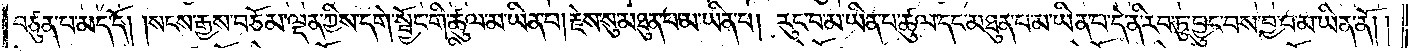བཙུན་པ་མད་དོ། །སངས་རྒྱས་བཅོམ་ལྡན་འདས་ཀྱིས་དགེ་སྦྱོང་གི་ཚུལ་མ་ཡིན་པ། རྗེས་སུ་མཐུན་པ་མ་ཡིན་པ། རུང་བ་མ་ཡིན་པ་ཚུལ་དང་མཐུན་པ་མ་ཡིན་པ་དེ་ནི་རབ་ཏུ་བྱུང་བས་བྱ་བ་མ་ཡིན་ནོ། །
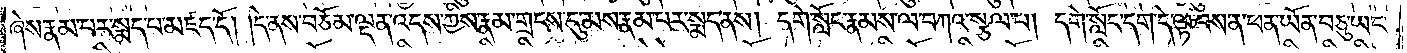ཞེས་རྣམ་པར་སྨད་པ་མཛད་དོ། །དེ་ནས་བཅོམ་ལྡན་འདས་ཀྱིས་རྣམ་གྲངས་དུ་མས་རྣམ་པར་སྨད་ནས། དགེ་སློང་རྣམས་ལ་བཀའ་སྩལ་པ། དགེ་སློང་དག་དེ་ལྟ་བས་ན་ཕན་ཡོན་བཅུ་ཡང་
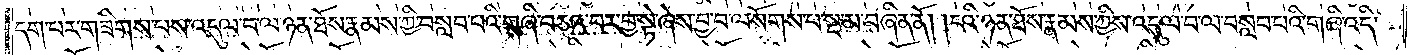དག་པར་གཟིགས་པས་འདུལ་བ་ལ་ཉན་ཐོས་རྣམས་ཀྱི་བསླབ་པའི་གཞི་བཅའ་བར་བྱ་སྟེ་ཞེས་བྱ་བ་ལ་སོགས་པ་སྔ་མ་བཞིན་ནོ། །ངའི་ཉན་ཐོས་རྣམས་ཀྱིས་འདུལ་བ་ལ་བསླབ་པའི་གཞི་འདི་
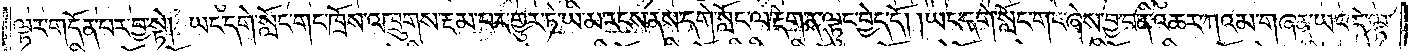ལྟར་གདོན་པར་བྱ་སྟེ། ཡང་དགེ་སློང་གང་ཁྲོས་འཁྲུགས་རྔམ་བར་གྱུར་ཏེ་ཡི་མ་རངས་ནས་དགེ་སློང་ལ་རྡེག་ན་ལྟུང་བྱེད་དོ། །ཡང་དགེ་སློང་གང་ཞེས་བྱ་བ་ནི་འཆར་ཀའམ་གཞན་ཡང་དེ་ལྟ་
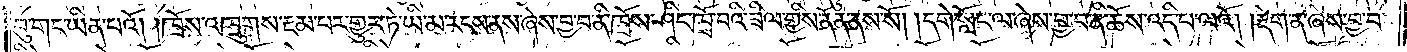བུ་གང་ཡིན་པའོ། །ཁྲོས་འཁྲུགས་རྔམ་པར་གྱུར་ཏེ་ཡི་མ་རངས་ནས་ཞེས་བྱ་བ་ནི་ཁྲོས་ཤིང་ཁྲོ་བའི་ཟིལ་གྱིས་ནོན་ནས་སོ། །དགེ་སློང་ལ་ཞེས་བྱ་བ་ནི་ཆོས་འདི་པ་ལའོ། །རྡེག་ན་ཞེས་བྱ་བ་
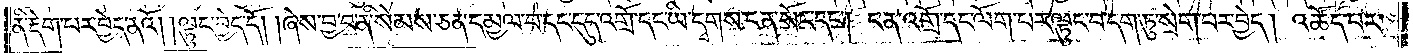ནི་རྡེག་པར་བྱེད་ནའོ། །ལྟུང་བྱེད་དོ། །ཞེས་བྱ་བ་ནི་སེམས་ཅན་དམྱལ་བ་དང་དུད་འགྲོ་དང་ཡི་དྭགས་ངན་སོང་དང༌། ངན་འགྲོ་དང་ལོག་པར་ལྟུང་བ་དག་ཏུ་སྲེག་པར་བྱེད། འཚོད་པར་
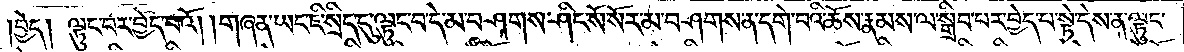བྱེད། ལྟུང་བར་བྱེད་པའོ། །གཞན་ཡང་ཇི་སྲིད་དུ་ལྟུང་བ་དེ་མ་བཤགས་ཤིང་སོ་སོར་མ་བཤགས་ན་དགེ་བའི་ཆོས་རྣམས་ལ་སྒྲིབ་པར་བྱེད་པ་སྟེ་དེས་ན་ལྟུང་
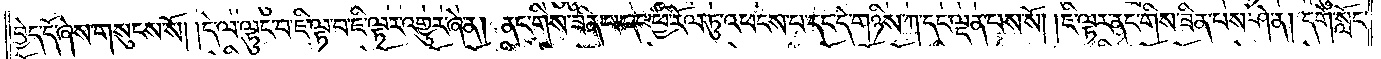བྱེད་དོ་ཞེས་གསུངས་སོ། །དེ་ལ་ལྟུང་བ་ཇི་ལྟ་བ་ཇི་ལྟར་འགྱུར་ཞེ་ན། ནང་གིས་ཟིན་པ་དང་ཕྱི་རོལ་ཏུ་འཕངས་པ་དང་དེ་གཉིས་ཀ་དང་ལྡན་པས་སོ། །ཇི་ལྟར་ནང་གིས་ཟིན་པས་ཤེ་ན། དགེ་སློང་
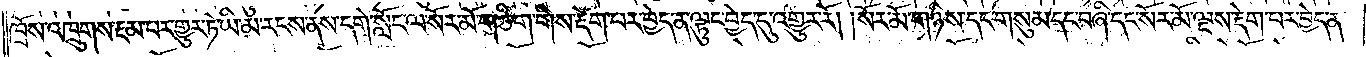ཁྲོས་འཁྲུགས་རྔམ་པར་གྱུར་ཏེ་ཡི་མ་རངས་ནས་དགེ་སློང་ལ་སོར་མོ་གཅིག་གིས་རྡེག་པར་བྱེད་ན་ལྟུང་བྱེད་དུ་འགྱུར་རོ། །སོར་མོ་གཉིས་དང་གསུམ་དང་བཞི་དང་སོར་མོ་ལྔས་རྡེག་པར་བྱེད་ན་
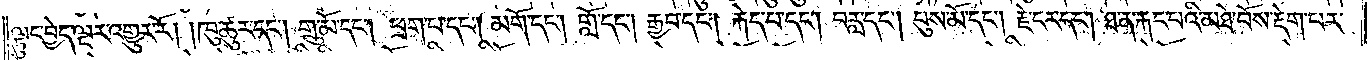ལྟུང་བྱེད་ལྔར་འགྱུར་རོ། །ཁུ་ཚུར་དང༌། གྲུ་མོ་དང༌། ཕྲག་པ་དང༌། མགོ་དང༌། གློ་དང༌། རྒྱབ་དང༌། རྐེད་པ་དང༌། བརླ་དང༌། བུས་མོ་དང༌། རྗེ་ངར་དང༌། ཐ་ན་རྐང་པའི་མཐེ་བོས་རྡེག་པར་
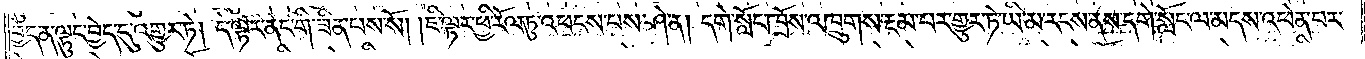བྱེད་ན་ལྟུང་བྱེད་དུ་འགྱུར་ཏེ། དེ་ལྟར་ནང་གི་ཟིན་པས་སོ། །ཇི་ལྟར་ཕྱི་རོལ་ཏུ་འཕངས་པས་ཤེ་ན། དགེ་སློང་ཁྲོས་འཁྲུགས་རྔམ་པར་གྱུར་ཏེ་ཡི་མ་རངས་ནས་དགེ་སློང་ལ་མདས་འཕེན་པར་
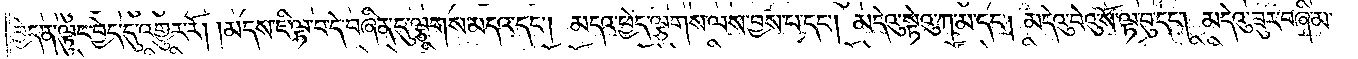བྱེད་ན་ལྟུང་བྱེད་དུ་འགྱུར་རོ། །མདས་ཇི་ལྟ་བ་དེ་བཞིན་དུ་ལྕགས་མདའ་དང༌། མདའ་ཕྱེད་ལྕགས་ལས་བྱས་པ་དང༌། མདེའུ་སྟེའུ་ཀ་མ་དང༌། མདེའུ་བེའུ་སོ་ལྟ་བུ་དང༌། མདེའུ་ཟུར་བཞི་མ་
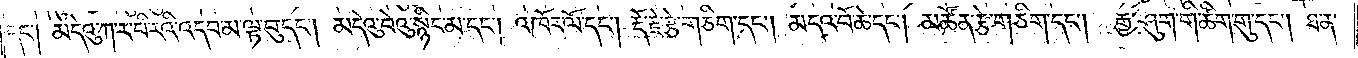དང༌། མདེའུ་ཀ་ར་བི་རའི་འདབ་མ་ལྟ་བུ་དང༌། མདེའུ་བེའུ་སྙིང་མ་དང༌། འཁོར་ལོ་དང༌། རྡོ་རྗེ་རྩེ་གཅིག་དང༌། མདའ་བོ་ཆེ་དང༌། མཚོན་རྩེ་གཅིག་དང༌། རྒྱ་ཤུག་གི་ཚིག་གུ་དང༌། ཐ་ན་
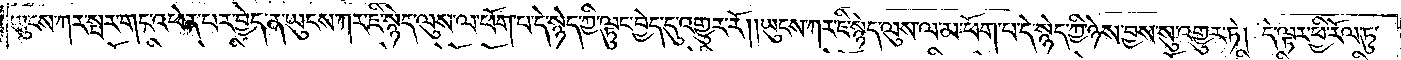ཡུངས་ཀར་སྤར་གང་འཕེན་པར་བྱེད་ན་ཡུངས་ཀར་ཇི་སྙེད་ལུས་ལ་ཕོག་པ་དེ་སྙེད་ཀྱི་ལྟུང་བྱེད་དུ་འགྱུར་རོ། །ཡུངས་ཀར་ཇི་སྙེད་ལུས་ལ་མ་ཕོག་པ་དེ་སྙེད་ཀྱི་ཉེས་བྱས་སུ་འགྱུར་ཏེ། དེ་ལྟར་ཕྱི་རོལ་ཏུ་
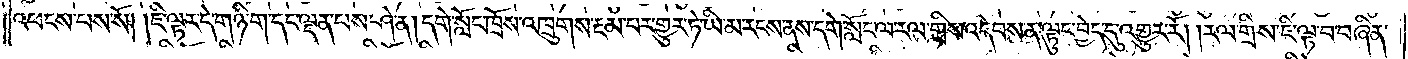འཕངས་པས་སོ། །ཇི་ལྟར་དེ་གཉི་ག་དང་ལྡན་པས་ཤེ་ན། དགེ་སློང་ཁྲོས་འཁྲུགས་རྔམ་པར་གྱུར་ཏེ་ཡི་མ་རངས་ནས་དགེ་སློང་ལ་རལ་གྲིས་འདེབས་ན་ལྟུང་བྱེད་དུ་འགྱུར་རོ། །རལ་གྲིས་ཇི་ལྟ་བ་བཞིན་
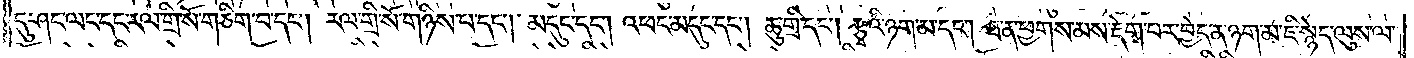དུ་ཤང་ལང་དང་རལ་གྲི་སོ་གཅིག་པ་དང༌། རལ་གྲི་སོ་གཉིས་པ་དང༌། མདུང་དང༌། འཕང་མདུང་དང༌། ཆུ་གྲི་དང༌། རྩྭའི་ཉག་མ་དང༌། ཐ་ན་ཕྱགས་མས་རྡེག་པར་བྱེད་ན་ཉག་མ་ཇི་སྙེད་ལུས་ལ་
